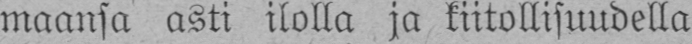maansa asti ilolla ja kiitollisuudella
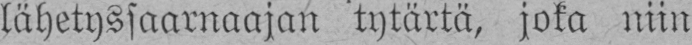lähetyssaarnaajan tytärtä, joka niin
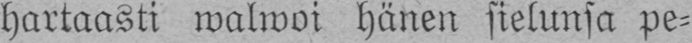hartaasti walwoi hänen sielunsa pe-
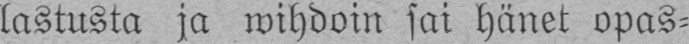lastusta ja wihdoin sai hänet opas-
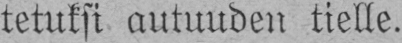tetuksi autuuden tielle.
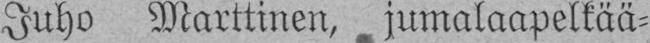Juho Marttinen, jumalaapelkää-
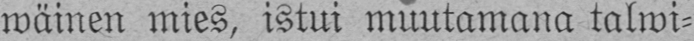wäinen mies, istui muutamana talwi-
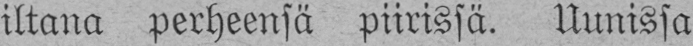iltana perheensä piirissä. Uunissa
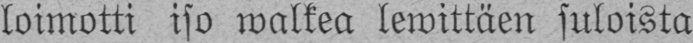loimotti iso walkea lewittäen suloista
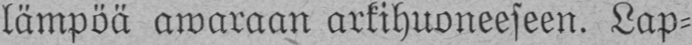lämpöä awaraan arkihuoneeseen. Lap-
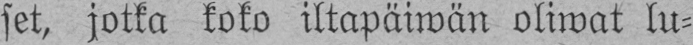set, jotka koko iltapäiwän oliwat lu-
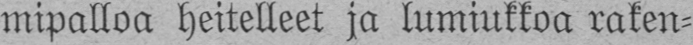mipalloa heitelleet ja lumiukkoa raken-
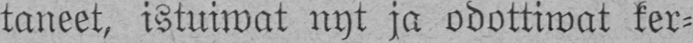taneet, istuiwat nyt ja odottiwat ker-
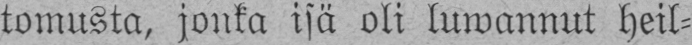tomusta, jonka isä oli luwannut heil-
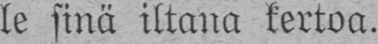le sinä iltana kertoa.
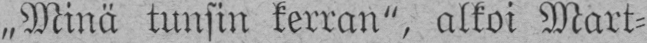„Minä tunsin kerran", alkoi Mart-
